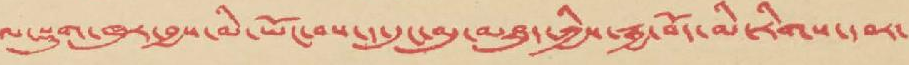ལ་སྡུག་ཁུར་བྱས་མི་ཡོང་བས་ད་དུང་མུ་མཐུད་ཀྱིས་རྒྱ་བོད་མི་རིགས་དབར་
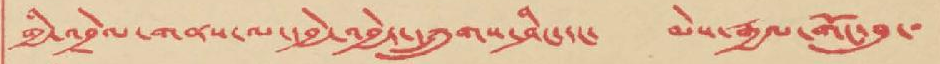གྱི་འབྲེལ་གནས་ལ་དབྱེ་འབྱེད་སྐྲུགས་ཤིང་དང་ མེས་རྒྱལ་གོང་བུ་་
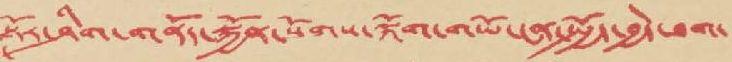སྟོར་ཤིག་གནོད་སྐྱོན་སོགས་ལྐོག་གཡོ་ངན་སྤྱོད་བྱེད་ཐག་
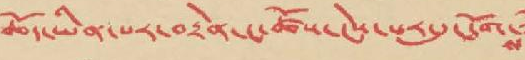ཆོད་ཡིན་པར་བརྟེན་ང་ཚོས་ངེས་པར་དུ་དོག་
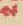ས
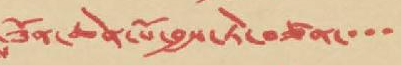ཟོན་ཆེན་པོ་བྱས་ཏེ་བཙན་་་་
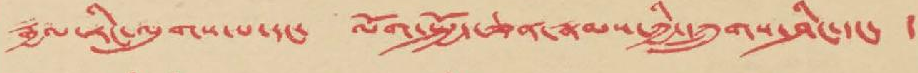རྒྱལ་རིང་ལུགས་པ་དང་ ལོག་སྤྱོད་ཅན་རྣམས་ཀྱི་དཀྲུགས་ཤིང་དང་ །
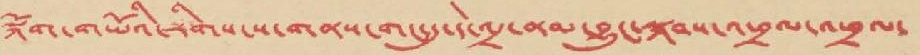ལྐོག་གཡོའི་རིགས་ས་གནས་གང་དུ་དེ་འདྲ་ནམ་བྱུང་སྐབས་འཕྲལ་འཕྲལ་
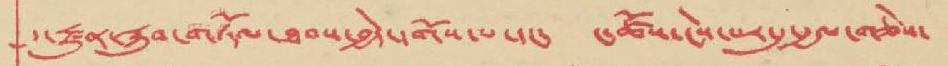དུ་རྫུན་རྐུབ་གཏོལ་ཐབས་བྱེད་དགོས་པ་དང་ ང་ཚོས་ངེས་པར་དུ་རྒྱལ་གཅེས་
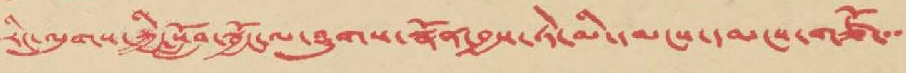རིང་ལུགས་ཀྱི་སློབ་སྦྱོང་ལ་ཤུགས་སྣོན་བྱས་ཏེ་མི་དམངས་མངས་གཙོ་་་
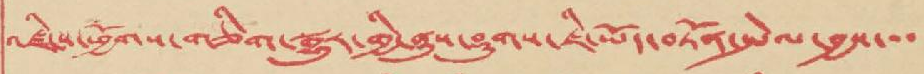འཛིངས་ཕྱོགས་གཅིག་སྒྱུར་གྱི་ནུས་ཤུགས་ཇི་ཡོད་བཏོན་སྤེལ་བྱས་་་
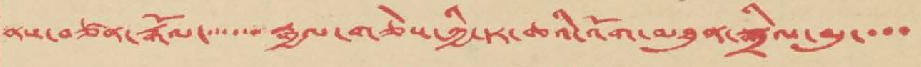ནས་བཙན་རྒོལ་་་་་་་རྒྱལ་གཅེས་ཀྱི་དར་ཆའི་འོག་མཐུན་སྒྲིལ་མུ་་་་
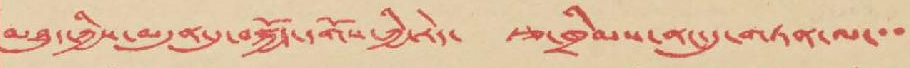མཐུད་ཀྱིས་མདུན་དུ་བསྐྱོད་དགོས་ཀྱི་རེད་ རྩ་ཁྲིམས་ནང་དུ་གཏན་ལ་་་
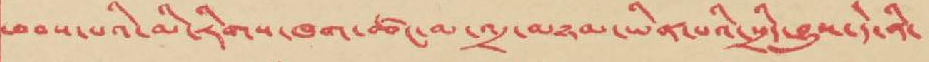ཕབས་པའི་མི་རིགས་ཁག་ཚང་མ་འདྲ་མཉམ་ཡིན་པའི་སྲིད་བྱུས་དེ་ནི་
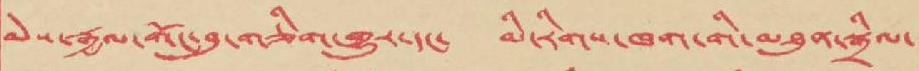མེས་རྒྱལ་གོང་བུ་གཅིག་གྱུར་དང་ མི་རིགས་ཁག་གི་མཐུན་སྒྲིལ་
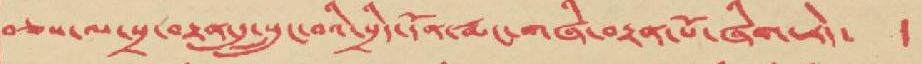བཅས་ལ་སྲ་བརྟན་དུ་སྲུང་བའི་སྲིད་དོན་རྨང་གཞི་བརྟན་པོ་ཞིག་རེད་ །
